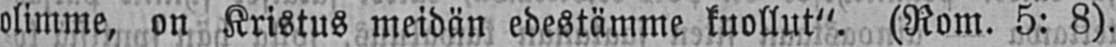olimme, on Kristus meidän edestämme kuollut". (Rom.5:8).
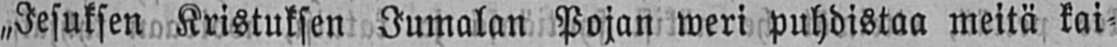˶Jesuksen Kristuksen Jumalan Pojan weri puhdistaa meitä kai-
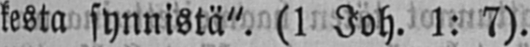kesta synnistä˝ (l Joh.l: 7).
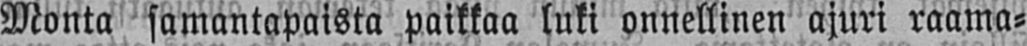Monta samantapaista paikkaa luki onnellinen ajuri raama-
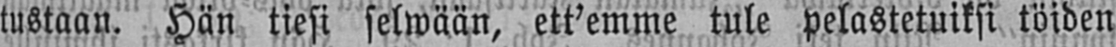tustaan. Hän tiesi selwään, ett'emme tule pelastetuiksi töiden
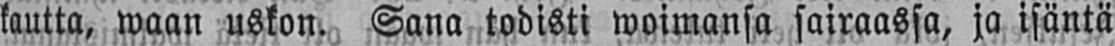kautta, waan uskon. Sana todisti woimansa sairaassa, ja isäntä
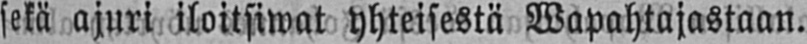sekä ajuri iloitsiwat yhteisestä Wapahtajastaan.
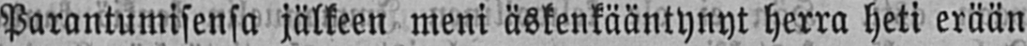Parantumisensa jälkeen meni äskenkääntynyt herra heti erään
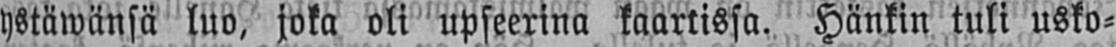ystäwänsä luo, joka oli upseerina kaartissa. Hänkin tuli usko-
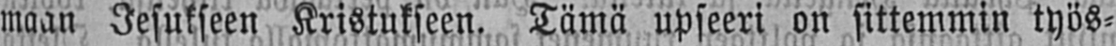maan Jesukseen Kristukseen. Tämä upseeri on sittemmin työs-
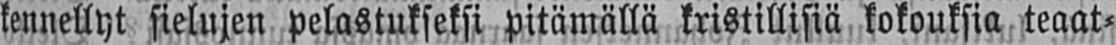kennellyt sielujen pelastukseksi pitämällä kristillisiä kokouksia teaat-
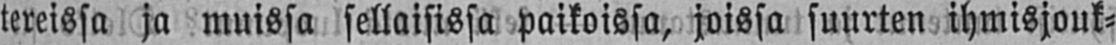tereissa ja muissa sellaisissa paikoissa, joissa suurten ihmisjouk-
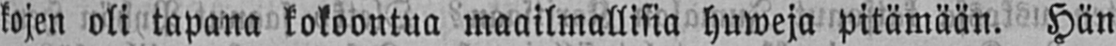kojen oli tapana kokoontua maailmallisia huweja pitämään. Hän
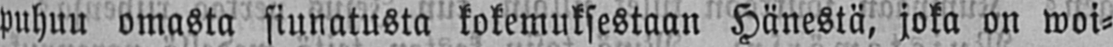puhuu omasta siunatusta kokemuksestaan Hänestä, joka on woi-
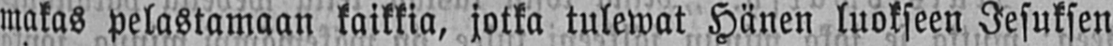makas pelastamaan kaikkia, jotka tulewat Hänen luokseen Jesuksen
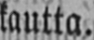kautta.
